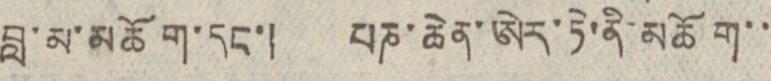བླ་མ་མཆོག་དང་། པཎ་ཆེན་ཨེར་ཏེ་ནི་མཆོག་་
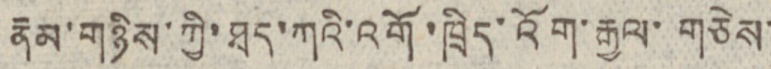རྣམ་གཉིས་ཀྱི་ཐད་ཀའི་འགོ་ཁྲིད་འོག་རྒྱལ་གཅེས་
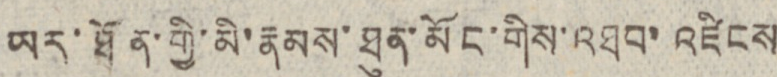ཡར་ཐོན་གྱི་མི་རྣམས་ཐུན་མོང་གིས་འཐབ་འཛིངས
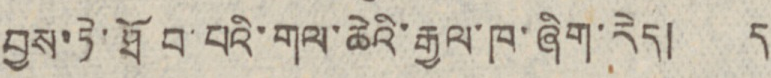བྱས་ཏེ་ཐོབ་པའི་གལ་ཆེའི་རྒྱལ་ཁ་ཞིག་རེད། ད
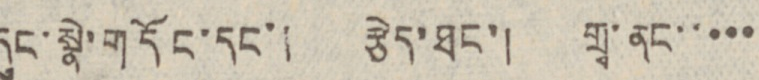དུང་སྣེ་གདོང་དང་། རྩེད་ཐང་། གྲྭ་ནང་་་་་
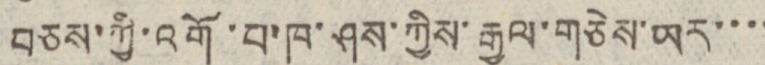བཅས་ཀྱི་འགོ་པ་ཁ་ཤས་ཀྱིས་རྒྱལ་གཅེས་ཡར་་་་
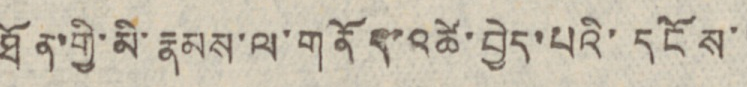ཐོན་གྱི་མི་རྣམས་ལ་གནོད་འཚེ་བྱེད་པའི་དངོས་་
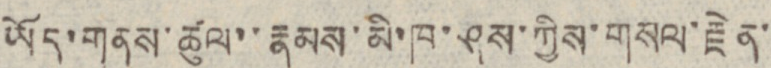ཡོད་གནས་ཚུལ་་རྣམས་མི་ཁ་ཤས་ཀྱིས་གསལ་རྗེན་
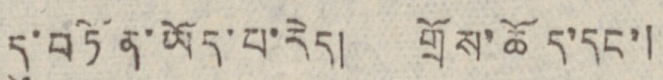དུ་བཏོན་ཡོད་པ་རེད། གྲོས་ཆོད་དང་།
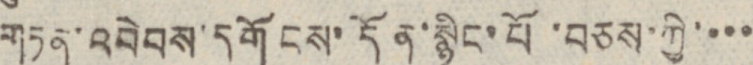གཏན་འབེབས་དགོངས་དོན་སྙིང་པོ་བཅས་ཀྱི་་་་
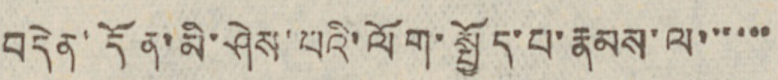བདེན་དོན་མི་ཤེས་པའི་ལོག་སྤྱོད་པ་རྣམས་ལ་་་་་་
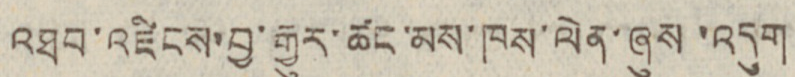འཐབ་འཛིངས་བྱ་རྒྱུར་ཚང་མས་ཁས་ལེན་ཞུས་འདུག
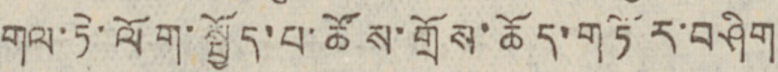གལ་ཏེ་ལོག་སྤྱོད་པ་ཚོས་གྲོས་ཆོད་གཏོར་བཤིག
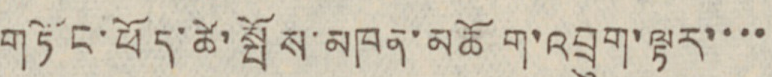གཏོང་ཕོད་ཚེ་སྤོས་མཁན་མཆོག་འབྲུག་ལྟར་་་་
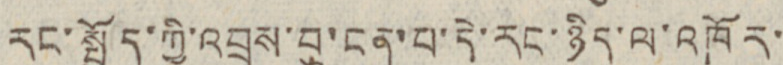རང་སྤྱོད་ཀྱི་འབྲས་བུ་ངན་པ་དེ་རང་ཉིད་ལ་འཁོར་
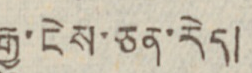རྒྱུ་ངེས་ཅན་རེད།
